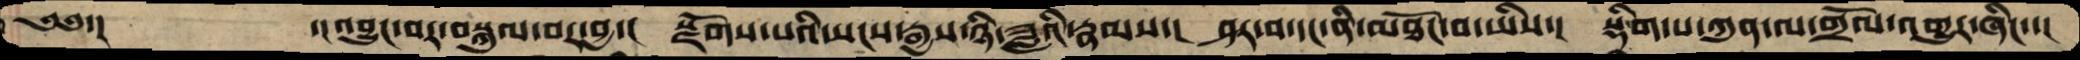༄༅་།         ་།འབྱུང་བར་བསྐུལ་བར་བྱ་།  སྫོགས་པའི་སངས་རྒྱས་ཉི་ཟླའི་རྣམས་།  ཤར་བ་དང་ནི་མཐོང་བ་ཡིས་།  སྡིག་པ་ཀུན་ལ་གྲོལ་འགྱུར་ཞིང་་།
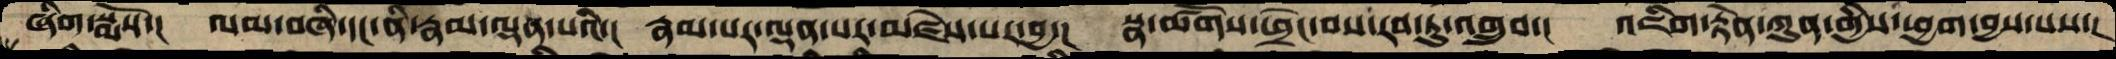ཞིག་སྨོས་།  ལམ་བཞི་དང་ནི་རྣམ་ལྡན་པའི་།  རྣམ་པར་ལྡན་པར་མཛེས་པར་བྱ་།  སྣ་ཚོགས་ཕྲེང་བས་རབ་ཏུ་འགྲུབ་།  འཇིག་རྟེན་ཀུན་གྱིས་ཕྱག་བྱས་པས་།
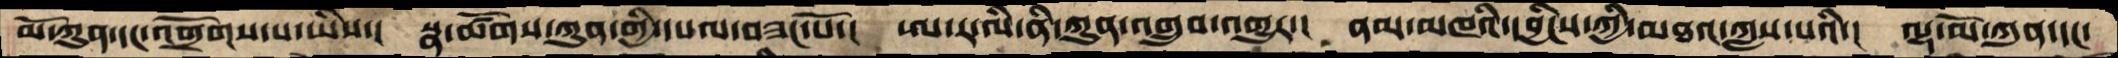མོ་ཀུན་དང་འགྲོགས་པ་ཡིས་།  སྣ་ཚོགས་ཀུན་གྱི་དཔལ་བཟང་པོ་།  ཨ་ར་ལི་ནི་ཀུན་འགྲུབ་འགྱུར་།  ནམ་མཁའི་དབྱིངས་ཀྱི་མཐའ་ཀླས་པའི་།  ལྷ་མོ་ཀུན་དང་
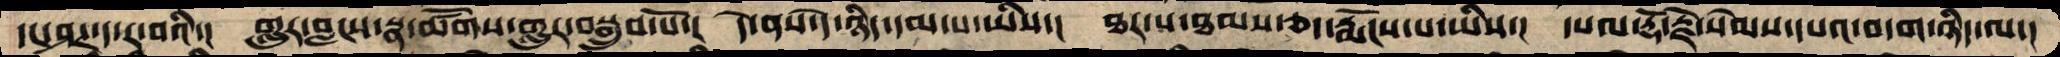དང་ཤཊ་ད་ར་བའི་།  གླུར་བླངས་སྣ་ཚོགས་གླུར་བསྒྲུབ་པོ་།  དེ་ནས་དེ་ཉིད་དམ་པ་ཡིས་།  ཐར་པ་ཐམས་ཅད་རྨོངས་པ་ཡིས་།  དཔལ་རྡོ་རྗེ་སེམས་དཔའ་བདག་ཉིད་ལ་།
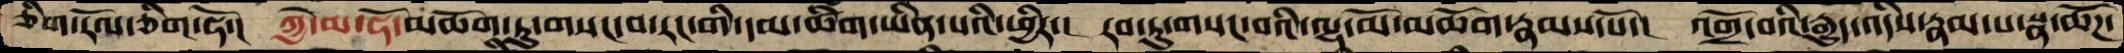ཅིག་རོལ་ཅིག་ཧོ་།  ཀྱེ་མ་ཧོ་མཆོག་ཏུ་གསང་བ་རང་གི་དམ་ཚིག་ཡིན་པའི་ཕྱིར་།  རབ་ཏུ་གསང་བའི་ལྷ་མོ་མཆོག་རྣམས་པའོ་།  འགྲོ་བའི་རྒྱུད་འདིས་རྣམ་པ་སྣ་ཚོཌ་
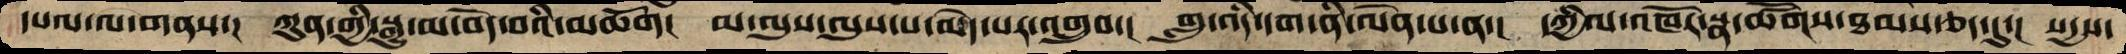དཔལ་ལ་གནས་།  ཀུན་གྱི་སྒྱུ་མ་བདེ་བའི་མཆོག།   མ་ལུས་ལུས་པ་མེད་པར་འགྲུབ་།  གླུ་འདི་དག་ནི་ལེན་པ་ན་།  དཀྱིལ་འཁོར་སྣ་ཚོགས་ཐམས་ཅད་དུ་།  སདྱས་
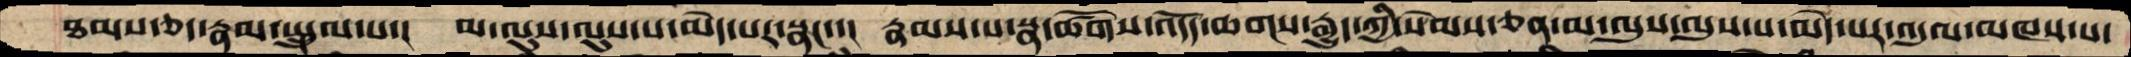ཐམས་ཅད་རྣམ་སྤྲུལ་པ་།  མ་ལུས་ལུས་པ་མེད་པར་སྣང་་།  རྣམས་པ་སྣ་ཚོགས་འདོད་ཆགས་རྒྱུད་ཀྱི་སེམས་ཅན་མ་ལུས་ལུས་པ་མེད་པར་འདུལ་མཁས་པ་
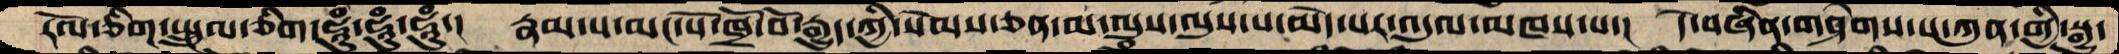རོལ་ཅིག་སྤྲུལ་ཅིག་ཧཱུཾ་ཧཱུཾ་ཧཱུཾ་།   རྣམ་པ་མང་པོ་ཁྲོ་བོ་རྒྱུད་ཀྱི་སེམས་ཅན་མ་ལུས་ལུས་པ་མེད་པར་འདུལ་མཁས་པ་།   དེ་བཞིན་གཤེགས་པ་ཀུན་གྱི་སྒྱུ་
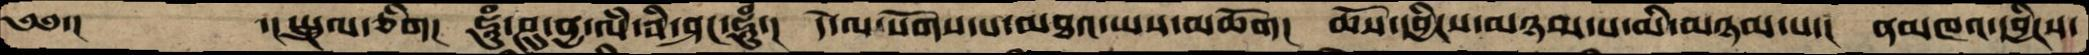༄༅་།       ་།སྤྲུལ་ཅིག།  ཧཱུཾ་ཤུ་ནྱ་ལཾ་བི་ཤང་ཧཱུཾ་།  དེ་ལ་སོགས་པ་མཐའ་ཡས་མཆོག།  ཆོས་དབྱིངས་མཉམ་པ་མི་མཉམ་པ་།  ནམཁའ་དབྱིངས་
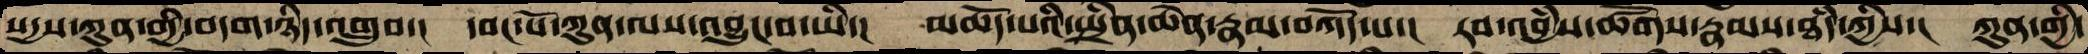སདྱས་ཀུན་གྱི་བདག་ཉིད་འགྲུབ་།  དབང་པོ་ཀུན་ལས་འབྱུང་བ་ཡི་།  མཆོད་པའི་སྤྲིན་ཆེན་རྣམ་བཀོད་པ་།  རབ་འབྱཾས་ཚོགས་རྣམས་ཐཾད་ཀྱིས་།  ཀུན་གྱི་
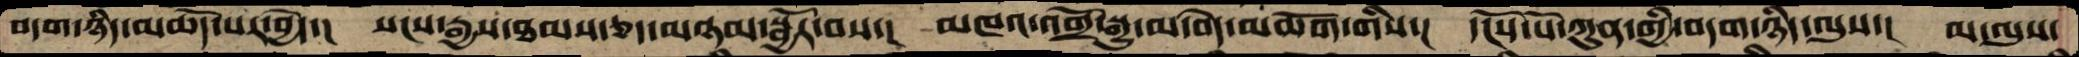བདག་ཉིད་མཆོད་པར་བྱེད་།   སངས་རྒྱས་ཐམས་ཅད་མཉམ་སྦྱོར་བས་།  མཁའ་འགྲོ་སྒྱུ་མ་བདེ་མཆོག་གིས་།  དངོས་པོ་ཀུན་གྱི་བདག་ཉིད་ལུས་།  མ་ལུས་
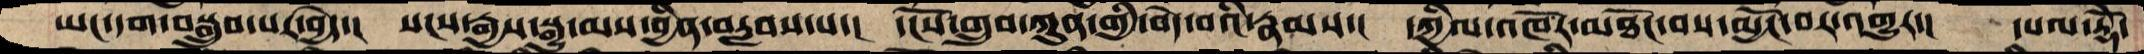ཡང་དག་བསྒྲུབ་པར་བྱེད་།   སངས་རྒྱས་སྒྱུ་མས་བྱིན་བརླབས་པ་།   དངོས་གྲུབ་ཀུན་གྱི་བདེ་བའི་རྣམས་།  དཀྱིལ་འཁོར་མཐོང་བས་མྱོང་བར་འགྱུར་།   དཔལ་རྡོེ་
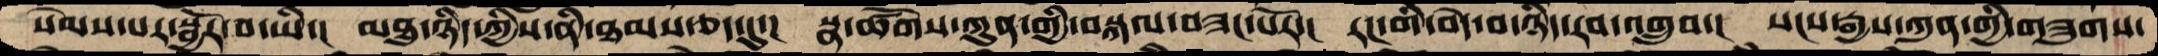སེམས་པར་སྦྱོར་བ་ཡི་།   མཐུ་ཉིད་ཀྱིས་ནི་ཐམས་ཅད་དུ་།  སྣ་ཚོགས་ཀུན་གྱི་བསྐལ་བཟང་པོར་།  རང་གི་བདེ་བ་ཉིད་རབ་འགྲུབ་།  སངས་རྒྱས་ཀུན་གྱི་གཟུགས་
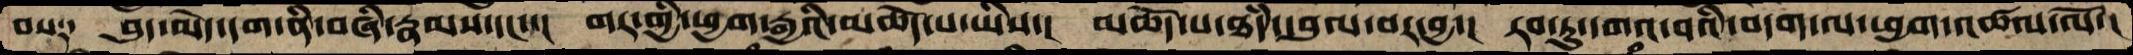བས༑  བུད་མེད་དག་ནི་བཞི་རྣམས་དང་་།  གར་གྱི་ཕྱག་རྒྱའི་མཆོད་པ་ཡིས་།   མཆོད་པ་ཐཾད་དབུལ་བར་བྱ་།  རབ་ཏུ་དགའ་བའི་བདག་ལ་ཕྱག་འཚལ་ལོ་།
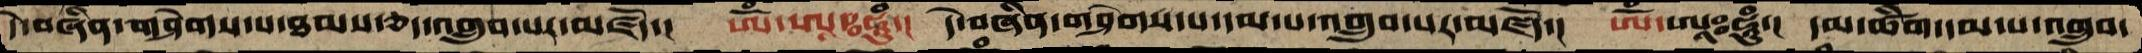དེ་བཞིན་གཤེགས་པ་ཐམས་ཅད་འགྲུབ་པར་མཛོད་།   ཨོཾ་ཨཱཿཧཱུཾ་།  དེ་བཞིན་གཤེགས་པ་དམ་པ་འགྲུབ་པར་མཛོད་།  ཨོཾ་ཨཱཿཧཱུཾ་།  དམ་ཚིག་དམ་པ་འགྲུབ་
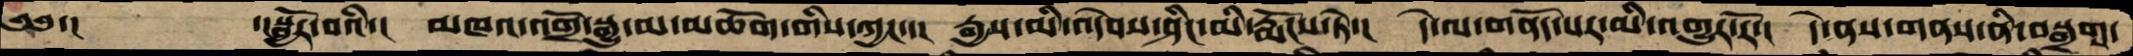༄༅་།         ་།སྦྱོར་བའི་།  མཁའ་འགྲོ་སྒྱུ་མ་མཆོག་གིས་ཀྱང་་།  རྒྱུས་མི་འདེབས་ཤིང་མི་རྨོངས་ཏེ་།  དེ་ལ་གནོད་པར་མི་འགྱུར་རོ་།  དེ་ནས་གནས་ནི་བསྒྲག་
